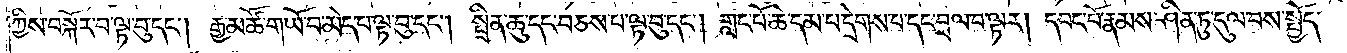ཀྱིས་བསྐོར་བ་ལྟ་བུ་དང༌། རྒྱ་མཚོ་གཡོ་བ་མེད་པ་ལྟ་བུ་དང༌། སྤྲིན་ཆུ་དང་བཅས་པ་ལྟ་བུ་དང༌། གླང་པོ་ཆེ་དམ་པ་དྲེགས་པ་དང་བྲལ་བ་ལྟར། དབང་པོ་རྣམས་ཤིན་ཏུ་དུལ་བས་སྤྱོད་
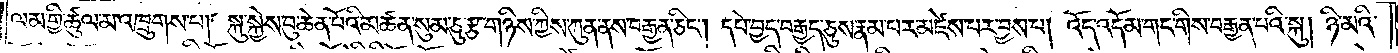ལམ་གྱི་ཚུལ་མ་འཁྲུགས་པ། སྐུ་སྐྱེས་བུ་ཆེན་པོའི་མཚན་སུམ་ཅུ་རྩ་གཉིས་ཀྱིས་ཀུན་ནས་བརྒྱན་ཅིང༌། དཔེ་བྱད་བརྒྱད་ཅུས་རྣམ་པར་མཛེས་པར་བྱས་པ། འོད་འདོམ་གང་གིས་བརྒྱན་པའི་སྐུ། ཉི་མའི་
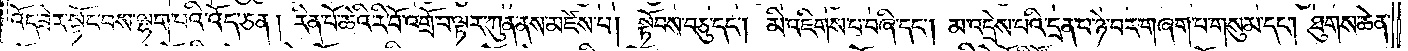འོད་ཟེར་སྟོང་བས་ལྷག་པའི་འོད་ཅན། རིན་པོ་ཆེའི་རི་བོ་འགྲོ་བ་ལྟར་ཀུན་ནས་མཛེས་པ། སྟོབས་བཅུ་དང༌། མི་འཇིགས་པ་བཞི་དང༌། མ་འདྲེས་པའི་དྲན་པ་ཉེ་བར་གཞག་པ་གསུམ་དང༌། ཐུགས་ཆེན་
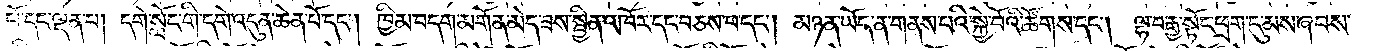པོ་དང་ལྡན་པ། དགེ་སློང་གི་དགེ་འདུན་ཆེན་པོ་དང༌། ཁྱིམ་བདག་མགོན་མེད་ཟས་སྦྱིན་འཁོར་དང་བཅས་པ་དང༌། མཉན་ཡོད་ན་གནས་པའི་སྐྱེ་བོའི་ཚོགས་དང༌། ལྷ་བརྒྱ་སྟོང་ཕྲག་དུ་མས་ཞབས་
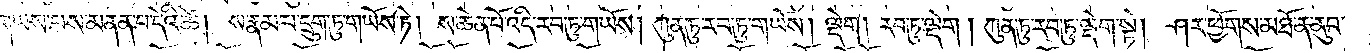གཡས་པས་མནན་པ་དེའི་ཚེ། ས་རྣམ་པ་དྲུག་ཏུ་གཡོས་ཏེ། ས་ཆེན་པོ་འདི་རབ་ཏུ་གཡོས། ཀུན་ཏུ་རབ་ཏུ་གཡོས། ལྡེག། རབ་ཏུ་ལྡེག །ཀུན་ཏུ་རབ་ཏུ་ལྡེག་སྟེ། ཤར་ཕྱོགས་མཐོ་ན་ནུབ་
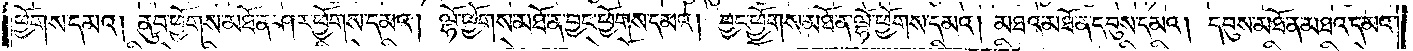ཕྱོགས་དམའ། ནུབ་ཕྱོགས་མཐོ་ན་ཤར་ཕྱོགས་དམའ། ལྷོ་ཕྱོགས་མཐོ་ན་བྱང་ཕྱོགས་དམའ། བྱང་ཕྱོགས་མཐོ་ན་ལྷོ་ཕྱོགས་དམའ། མཐའ་མཐོ་ན་དབུས་དམའ། དབུས་མཐོ་ན་མཐའ་དམའ་
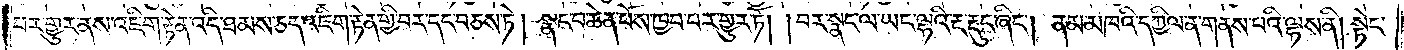བར་གྱུར་ནས་འཇིག་རྟེན་འདི་ཐམས་ཅད་འཇིག་རྟེན་གྱི་བར་དང་བཅས་ཏེ། སྣང་བ་ཆེན་པོས་ཁྱབ་པར་གྱུར་ཏོ། །བར་སྣང་ལ་ཡང་ལྷའི་རྔ་རྡུང་ཞིང༌། ནམ་མཁའི་དཀྱིལ་ན་གནས་པའི་ལྷས་ནི། སྟེང་
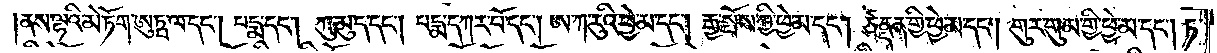ནས་ལྷའི་མེ་ཏོག་ཨུཏྤ་ལ་དང༌། པདྨ་དང༌། ཀུ་མུད་དང༌། པདྨ་དཀར་པོ་དང༌། ཨ་ཀ་རུའི་ཕྱེ་མ་དང༌། རྒྱ་སྤོས་ཀྱི་ཕྱེ་མ་དང༌། ཙནྡན་གྱི་ཕྱེ་མ་དང༌། གུར་གུམ་གྱི་ཕྱེ་མ་དང༌། ཏ་
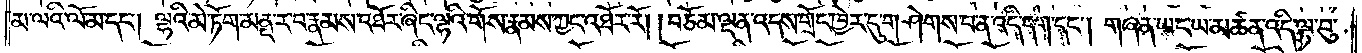མ་ལའི་ལོ་མ་དང༌། ལྷའི་མེ་ཏོག་མནྡ་ར་བ་རྣམས་འཐོར་ཞིང་ལྷའི་གོས་རྣམས་ཀྱང་འཐོར་རོ། །བཅོམ་ལྡན་འདས་གྲོང་ཁྱེར་དུ་གཤེགས་པ་ན་འདི་དག་དང༌། གཞན་ཡང་ཡ་མཚན་འདི་ལྟ་བུ་
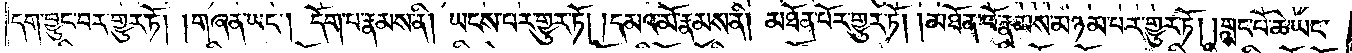དག་བྱུང་བར་གྱུར་ཏོ། །གཞན་ཡང༌། དོག་པ་རྣམས་ནི། ཡངས་པར་གྱུར་ཏོ། །དམའ་མོ་རྣམས་ནི། མཐོན་པོར་གྱུར་ཏོ། །མཐོན་པོ་རྣམས་མཉམ་པར་གྱུར་ཏོ། །གླང་པོ་ཆེ་ཡང་
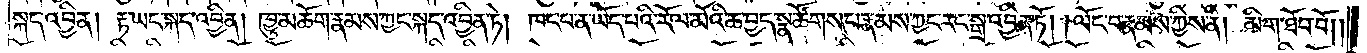སྐད་འབྱིན། རྟ་ཡང་སྐད་འབྱིན། ཁྱུ་མཆོག་རྣམས་ཀྱང་སྐད་འབྱིན་ཏེ། ཁང་པ་ན་ཡོད་པའི་རོལ་མོའི་ཆ་བྱད་སྣ་ཚོགས་པ་རྣམས་ཀྱང་རང་སྒྲ་འབྱིན་ཏོ། །ལོང་བ་རྣམས་ཀྱིས་ནི། མིག་ཐོབ་བོ། །
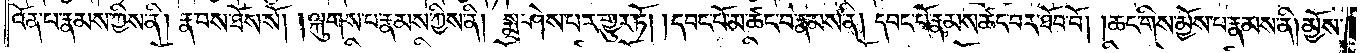འོན་པ་རྣམས་ཀྱིས་ནི། རྣ་བས་ཐོས་སོ། །ལྐུགས་པ་རྣམས་ཀྱིས་ནི། སྨྲ་ཤེས་པར་གྱུར་ཏོ། །དབང་པོ་མ་ཚང་བ་རྣམས་ནི། དབང་པོ་རྣམས་ཚང་བར་ཐོབ་བོ། །ཆང་གིས་མྱོས་པ་རྣམས་ནི།མྱོས་
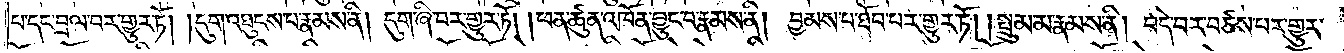པ་དང་བྲལ་བར་གྱུར་ཏོ། །དུག་འཐུངས་པ་རྣམས་ནི། དུག་ཞི་བར་གྱུར་ཏོ། །ཕན་ཚུན་འཁོན་བྱུང་བ་རྣམས་ནི། བྱམས་པ་ཐོབ་པར་གྱུར་ཏོ། །སྦྲུམ་མ་རྣམས་ནི། བདེ་བར་བཙས་པར་གྱུར་
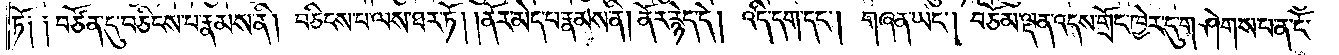ཏོ༑ ༑བཙོན་དུ་བཅིངས་པ་རྣམས་ནི། བཅིངས་པ་ལས་ཐར་ཏོ། །ནོར་མེད་པ་རྣམས་ནི། ནོར་རྙེད་དེ། འདི་དག་དང༌། གཞན་ཡང༌། བཅོམ་ལྡན་འདས་གྲོང་ཁྱེར་དུ་གཤེགས་པ་ན་ངོ་
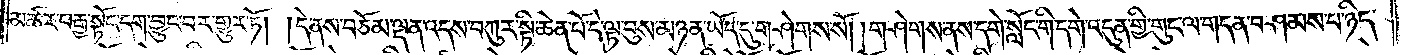མཚར་བརྒྱ་སྟོང་དག་བྱུང་བར་གྱུར་ཏོ། །དེ་ནས་བཅོམ་ལྡན་འདས་བཀུར་སྟི་ཆེན་པོ་དེ་ལྟ་བུས་མཉན་ཡོད་དུ་གཤེགས་སོ། །གཤེགས་ནས་དགེ་སློང་གི་དགེ་འདུན་གྱི་གུང་ལ་གདན་བཤམས་པ་ཉིད་
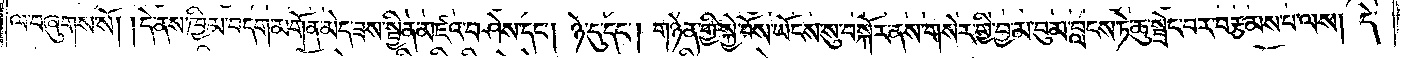ལ་བཞུགས་སོ། །དེ་ནས་ཁྱིམ་བདག་མགོན་མེད་ཟས་སྦྱིན་མཛའ་བཤེས་དང༌། ཉེ་དུ་དང༌། གཉེན་གྱི་སྐྱེ་བོས་ཡོངས་སུ་བསྐོར་ནས་གསེར་གྱི་བྱ་མ་བུམ་བླངས་ཏེ་ཆུ་སྦྲེང་བར་བརྩམས་པ་ལས། དེ་
